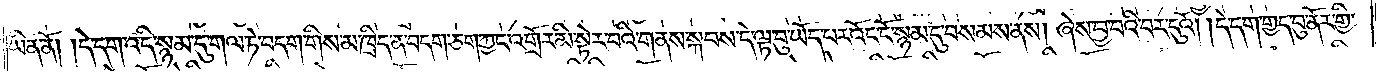ཡིན་ནོ། །དེ་དག་འདི་སྙམ་དུ་གལ་ཏེ་བདག་གིས་མ་ཁྲིད་ན་བདག་ཅག་ཀྱང་འགྲོར་མི་སྟེར་བའི་གནས་སྐབས་དེ་ལྟ་བུ་ཡོད་པར་འོང་ངོ་སྙམ་དུ་བསམས་ནས། ཞེས་བྱ་བའི་བར་དུའོ། །དེ་དག་གྱད་བུ་ནོར་གྱི་
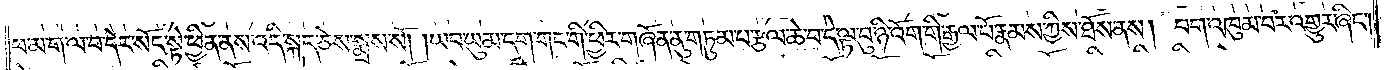ཕ་མ་ག་ལ་བ་དེར་སོང་སྟེ་ཕྱིན་ནས་འདི་སྐད་ཅེས་སྨྲས་སོ། །ཡབ་ཡུམ་དག་གང་གི་ཕྱིར་གཞོན་ནུ་གཏུམ་པ་རྩལ་ཆེ་བ་དེ་ལྟ་བུ་ཉི་འོག་གི་རྒྱལ་པོ་རྣམས་ཀྱིས་ཐོས་ནས། བག་འཁུམ་པར་འགྱུར་ཞིང༌།
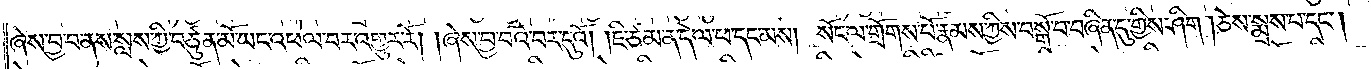ཞེས་བྱ་བ་ནས་སླས་ཀྱི་བཙུན་མོ་ཡང་འཕེལ་བར་འགྱུར་རོ། །ཞེས་བྱ་བའི་བར་དུའོ། །ཇི་ཙམ་ན་དེ་ལ་ཕ་དང་མས། སོང་ལ་གྲོགས་པོ་རྣམས་ཀྱིས་བསྒོ་བ་བཞིན་དུ་གྱིས་ཤིག །ཅེས་སྨྲས་པ་དང༌།
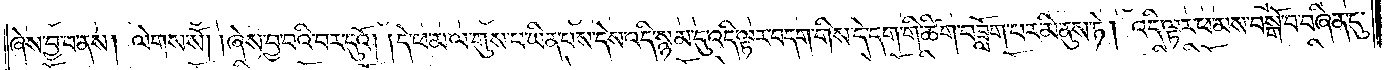ཞེས་བྱ་བ་ནས། ལེགས་སོ། །ཞེས་བྱ་བའི་བར་དུའོ། །དེ་ཕ་མ་ལ་གུས་པ་ཡིན་པས་དེས་འདི་སྙམ་དུ་འདི་ལྟར་བདག་གིས་དེ་དག་གི་ཚིག་བཟློག་པར་མི་ནུས་ཏེ། འདི་ལྟར་ཕ་མས་བསྒོ་བ་བཞིན་དུ་
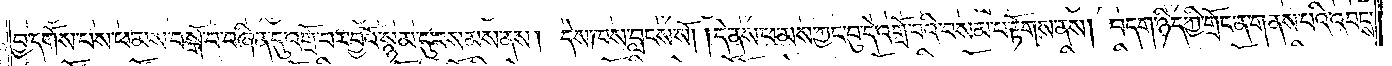བྱ་དགོས་པས་ཕ་མས་བསྒོ་བ་བཞིན་དུ་འགྲོ་བར་བྱའོ་སྙམ་དུ་བསམས་ནས། དེས་ཁས་བླངས་སོ། །དེ་ནས་ཕ་མས་ཀྱང་བུ་དེ་འགྲོ་བའི་བསམ་པ་རྟོགས་ནས། བདག་ཉིད་ཀྱི་གྲོང་ན་གནས་པའི་འབངས་
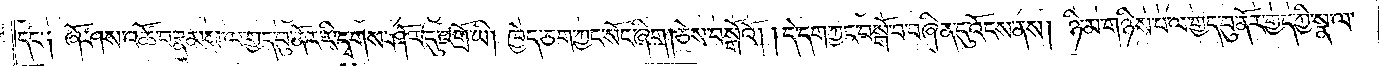དང་༑ ཞོ་ཤས་འཚོ་བ་རྣམས་ལ་གྱད་བུ་ནོར་རི་དྭགས་ཤོར་དུ་འགྲོ་ཡི། ཁྱེད་ཅག་ཀྱང་སོང་ཞིག །ཅེས་བསྒོའོ། །དེ་དག་ཀྱང་བསྒོ་བ་བཞིན་དུ་འོངས་ནས། ཉི་མ་གཉིས་པ་ལ་གྱད་བུ་ནོར་གྱད་ཀྱི་སྣ་ལ་
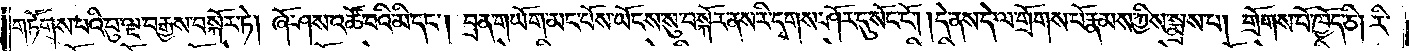གཏོགས་པའི་བུ་ལྔ་བརྒྱས་བསྐོར་ཏེ། ཞོ་ཤས་འཚོ་བའི་མི་དང༌། བྲན་གཡོག་མང་པོས་ཡོངས་སུ་བསྐོར་ནས་རི་དྭགས་ཤོར་དུ་སོང་ངོ༌། །དེ་ནས་དེ་ལ་གྲོགས་པོ་རྣམས་ཀྱིས་སྨྲས་པ། གྲོགས་པོ་ཁྱོད་ཅི། རི་
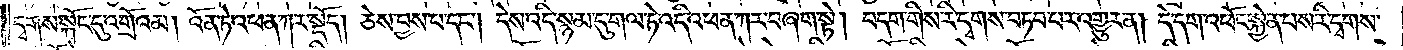དྭགས་སྐོང་དུ་འགྲོའམ། འོན་ཏེ་འཕན་ཀར་སྡོད། ཅེས་བྱས་པ་དང༌། དེས་འདི་སྙམ་དུ་གལ་ཏེ་འདི་འཕན་ཀར་བཞག་སྟེ། བདག་གིས་རི་དྭགས་བཏབ་པར་འགྱུར་ན། དེ་དག་འཕོང་སྐྱེན་པས་རི་དྭགས་
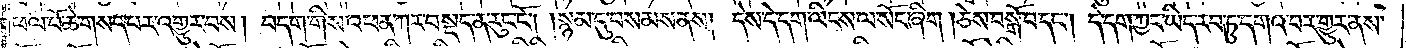ཕལ་པོ་ཆེ་གསད་པར་འགྱུར་བས། བདག་གིས་འཕན་ཀར་བསྡད་ན་རུང་ངོ༌། །སྙམ་དུ་བསམས་ནས། དེས་དེ་དག་ལིངས་ལ་སོང་ཞིག །ཅེས་བསྒོ་བ་དང༌། དེ་དག་ཀྱང་ཡིད་རབ་ཏུ་དགའ་བར་གྱུར་ནས་
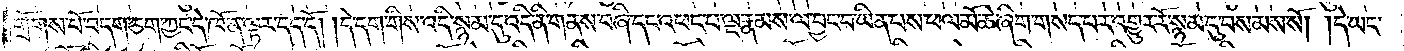གྲོགས་པོ་བདག་ཅག་ཀྱང་དེ་ཁོ་ན་ལྟར་དད་དོ། །དེ་དག་གིས་འདི་སྙམ་དུ་འདི་ནི་གནས་བཞི་དང་འཕང་པ་ལྔ་རྣམས་ལ་བྱང་བ་ཡིན་པས་ཕལ་མོ་ཆེ་ཞིག་གསད་པར་འགྱུར་རོ་སྙམ་དུ་བསམས་སོ། །དེ་ཡང་
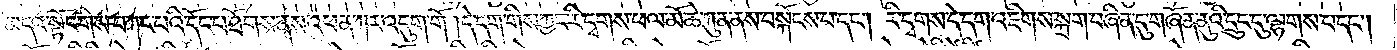མདའ་སྟོང་གིས་བཀང་པའི་དོང་པ་ཐོགས་ནས་འཕན་ཀར་འདུག་གོ །དེ་དག་གིས་ཀྱང་རི་དྭགས་ཕལ་མོ་ཆེ་ཀུན་ནས་བསྐོངས་པ་དང༌། རི་དྭགས་དེ་དག་འཇིགས་སྐྲག་བཞིན་དུ་གཞོན་ནུའི་དྲུང་དུ་ལྷགས་པ་དང༌།
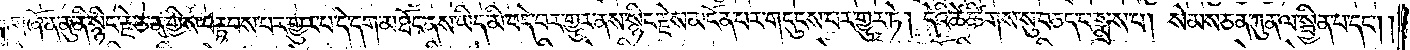གཞོན་ནུ་ནི་སྙིང་རྗེ་ཅན་གྱིས་བརྟབས་པར་གྱུར་པ་དེ་དག་མཐོང་ནས་ཡིད་མི་བདེ་བར་གྱུར་ནས་སྙིང་རྗེས་མངོན་པར་གདུངས་པར་གྱུར་ཏེ། དེའི་ཚེ་ཚིགས་སུ་བཅད་པ་སྨྲས་པ། སེམས་ཅན་ཀུན་ལ་སྦྱིན་པ་དང༌༎
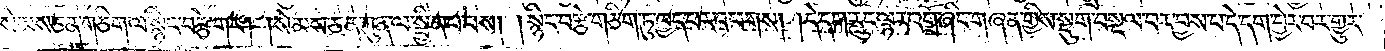སེམས་ཅན་གཅིག་ལ་སྙིང་བརྩེ་གང༌། །སེམས་ཅན་ཀུན་ལ་སྦྱིན་པ་བས། །སྙིང་བརྩེ་གཅིག་ཏུ་ཁྱད་པར་འཕགས། །དེ་དག་རླུང་ལྟར་འགྲོ་ཞིང་གཞན་གྱིས་སྡུག་བསྔལ་བར་བྱས་པ་དེ་དག་བྱེར་བར་གྱུར་
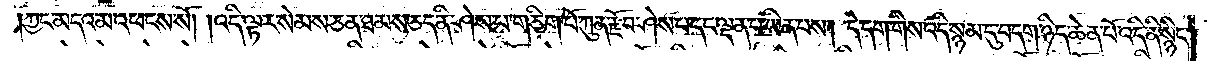ཀྱང་མདའ་མ་འཕངས་སོ། །འདི་ལྟར་སེམས་ཅན་ཐམས་ཅད་ནི་ཤེས་པ་གཅིག་པོ་ཀུན་རྫོབ་ཤེས་པ་དང་ལྡན་པ་ཡིན་པས། དེ་དག་གིས་འདི་སྙམ་དུ་བདག་ཉིད་ཆེན་པོ་འདི་ནི་སྙིང་
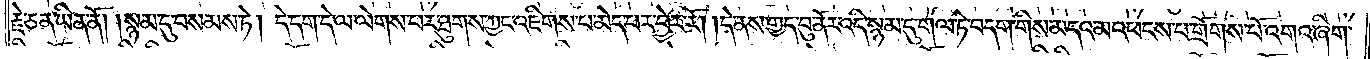རྗེ་ཅན་ཡིན་ནོ། །སྙམ་དུ་བསམས་ཏེ། དེ་དག་དེ་ལ་ལེགས་པར་ཐུགས་ཀྱང་འཇིགས་པ་མེད་པར་བྱེར་རོ། །དེ་ནས་གྱད་བུ་ནོར་འདི་སྙམ་དུ་གལ་ཏེ་བདག་གིས་མདའམ་འཕངས་པ་གྲོགས་པོ་འགའ་ཞིག་
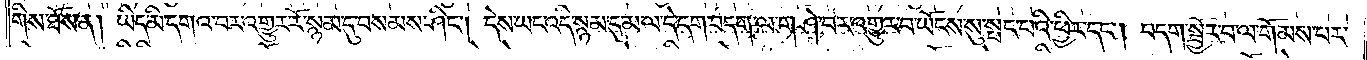གིས་ཐོས་ན། ཡིད་མི་དགའ་བར་འགྱུར་རོ་སྙམ་དུ་བསམས་ཤིང༌། དེས་ཡང་འདི་སྙམ་དུ་མ་ལ་དེ་དག་བདག་ལ་གཤེ་བར་འགྱུར་བ་ཡོངས་སུ་སྤང་བའི་ཕྱིར་དང༌། བདག་སྦྱོར་བ་ལ་གོམས་པར་
